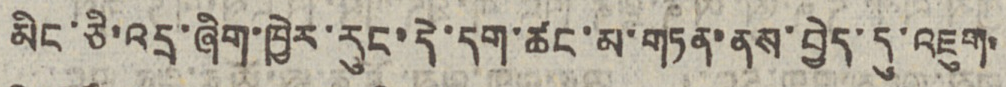མིང་ཅི་འདྲ་ཞིག་ཁྱེར་རུང་དེ་དག་ཚང་མ་གཏན་ནས་བྱེད་དུ་འཇུག་
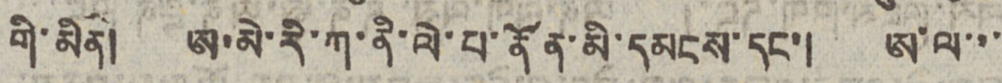གི་མིན། ཨ་མེ་རི་ཀ་ནི་ལེ་པ་ནོན་མི་མདངས་དང་། ཨ་ལ་་་
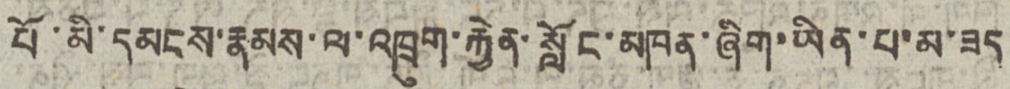པོ་མི་དམངས་རྣམས་ལ་འཁྲུག་རྐྱེན་སློང་མཁན་ཞིག་ཡིན་པ་མ་ཟད
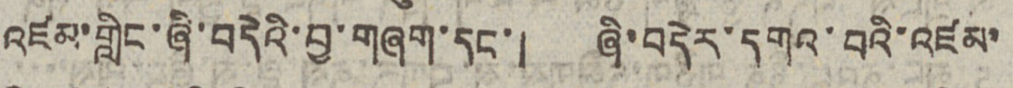འཛམ་གླིང་ཞི་བདེའི་བྱ་གཞག་དང་། ཞི་བདེར་དགའ་བའི་འཛམ་
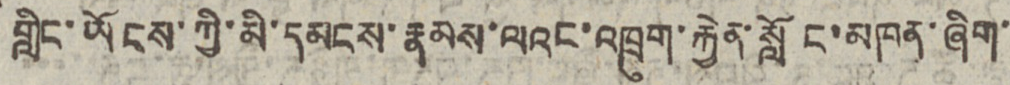གླིང་ཡོངས་ཀྱི་མི་དམངས་རྣམས་ལའང་འཁྲུག་རྐྱེན་སློང་མཁན་ཞིག་
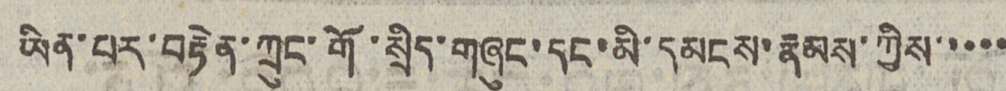ཡིན་པར་བརྟེན་ཀྲུང་གོ་སྲིད་གཞུང་དང་མི་དམངས་རྣམས་ཀྱིས་་་་་
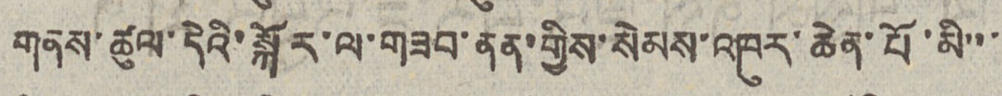གནས་ཚུལ་དེའི་སྐོར་ལ་གཟབ་ནན་གྱིས་སེམས་འཁུར་ཆེན་པོ་མི་་་
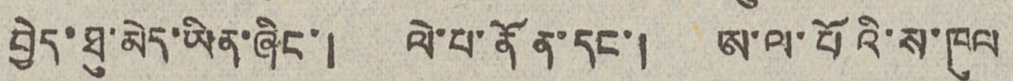བྱེད་ཐུ་མེད་ཡིན་ཞིང་། ལེ་པ་ནོན་དང་། ཨ་ལ་པོའི་ས་ཁུལ
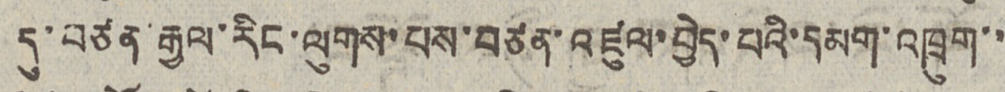དུ་བཙན་རྒྱལ་རིང་ལུགས་པས་བཙན་འཛུལ་བྱེད་པའི་དམག་འཁྲུག་་
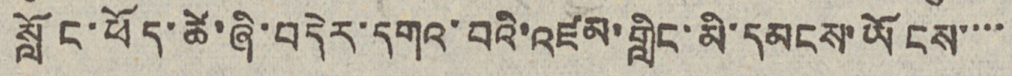སློང་ཕོད་ཚེ་ཞི་བདེར་དགའ་བའི་འཛམ་གླིང་མི་དམངས་ཡོངས་་་་
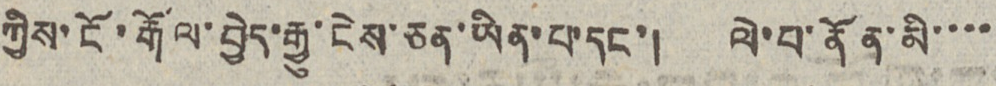ཀྱིས་ངོ་རྒོལ་བྱེད་རྒྱུ་ངེས་ཅན་ཡིན་པ་དང་། ལེ་པ་ནོན་མི་་་་
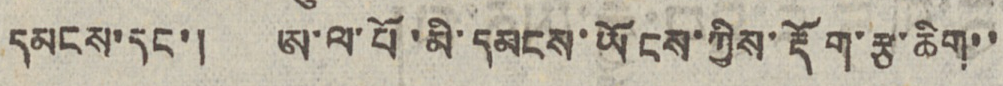དམངས་དང་། ཨ་ལ་པོ་མི་དམངས་ཡོངས་ཀྱིས་རྡོག་རྩ་ཆིག་་
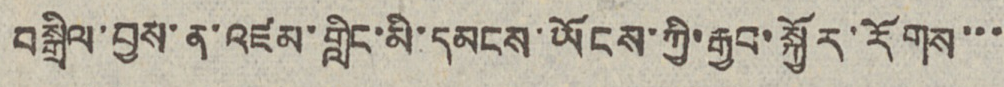བསྒྲིལ་བྱས་ན་འཛམ་གླིང་མི་དམངས་ཡོངས་ཀྱི་རྒྱབ་སྐྱོར་རོགས་་་
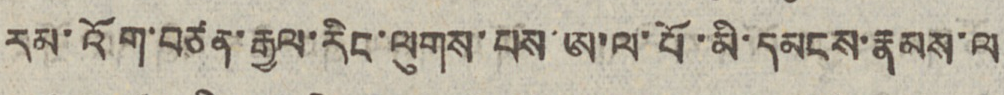རམ་འོག་བཙན་རྒྱལ་རིང་ལུགས་པས་ཨ་ལ་པོ་མི་དམངས་རྣམས་ལ
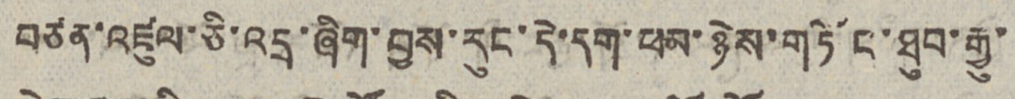བཙན་འཛུལ་ཅི་འདྲ་ཞིག་བྱས་རུང་དེ་དག་ཕམ་ཉེས་གཏོང་ཐུབ་རྒྱུ་
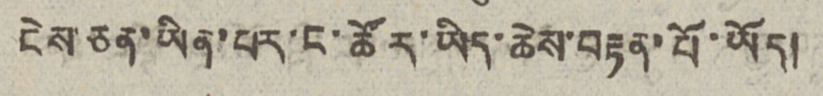ངེས་ཅན་ཡིན་པར་ང་ཚོར་ཡིད་ཆེས་བརྟན་པོ་ཡོད།
